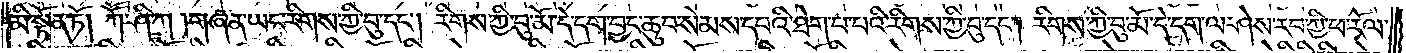མི་སྟོན་ཏོ། །ཀཽ་ཤི་ཀ། གཞན་ཡང་རིགས་ཀྱི་བུ་དང༌། རིགས་ཀྱི་བུ་མོ་དེ་དག་བྱང་ཆུབ་སེམས་དཔའི་ཐེག་པ་པའི་རིགས་ཀྱི་བུ་དང༌། རིགས་ཀྱི་བུ་མོ་དེ་དག་ལ་ཤེས་རབ་ཀྱི་ཕ་རོལ་
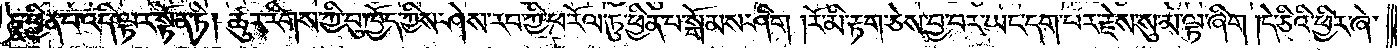ཏུ་ཕྱིན་པ་འདི་ལྟར་སྟོན་ཏེ། ཚུར་རིགས་ཀྱི་བུ་ཁྱོད་ཀྱིས་ཤེས་རབ་ཀྱི་ཕ་རོལ་ཏུ་ཕྱིན་པ་སྒོམས་ཤིག །རོ་མི་རྟག་ཅེས་བྱ་བར་ཡང་དག་པར་རྗེས་སུ་མ་ལྟ་ཞིག །དེ་ཅིའི་ཕྱིར་ཞེ་
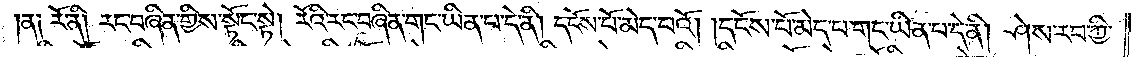ན༑ རོ་ནི། རང་བཞིན་གྱིས་སྟོང་སྟེ། རོའི་རང་བཞིན་གང་ཡིན་པ་དེ་ནི། དངོས་པོ་མེད་པའོ། །དངོས་པོ་མེད་པ་གང་ཡིན་པ་དེ་ནི། ཤེས་རབ་ཀྱི་
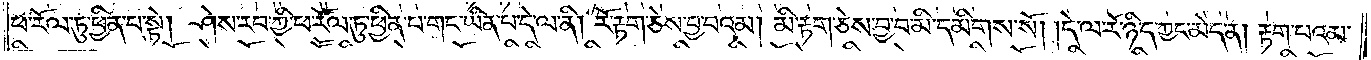ཕ་རོལ་ཏུ་ཕྱིན་པ་སྟེ། ཤེས་རབ་ཀྱི་ཕ་རོལ་ཏུ་ཕྱིན་པ་གང་ཡིན་པ་དེ་ལ་ནི། རོ་རྟག་ཅེས་བྱ་བའམ། མི་རྟག་ཅེས་བྱ་བ་མི་དམིགས་སོ། །དེ་ལ་རོ་ཉིད་ཀྱང་མེད་ན། རྟག་པའམ་
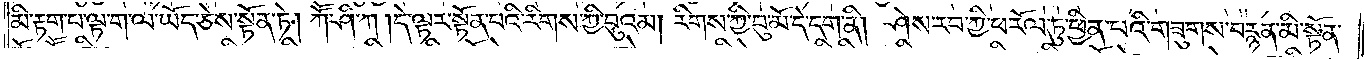མི་རྟག་པ་ལྟ་ག་ལ་ཡོད་ཅེས་སྟོན་ཏེ། ཀཽ་ཤི་ཀ། དེ་ལྟར་སྟོན་པའི་རིགས་ཀྱི་བུའམ། རིགས་ཀྱི་བུ་མོ་དེ་དག་ནི། ཤེས་རབ་ཀྱི་ཕ་རོལ་ཏུ་ཕྱིན་པའི་གཟུགས་བརྙན་མི་སྟོན་
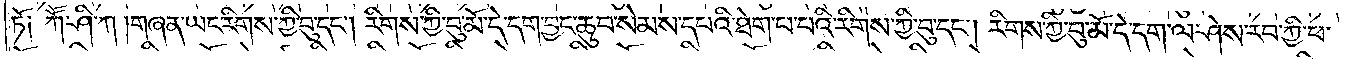ཏོ༑ ཀཽ་ཤི་ཀ། གཞན་ཡང་རིགས་ཀྱི་བུ་དང༌། རིགས་ཀྱི་བུ་མོ་དེ་དག་བྱང་ཆུབ་སེམས་དཔའི་ཐེག་པ་པའི་རིགས་ཀྱི་བུ་དང༌། རིགས་ཀྱི་བུ་མོ་དེ་དག་ལ་ཤེས་རབ་ཀྱི་ཕ་
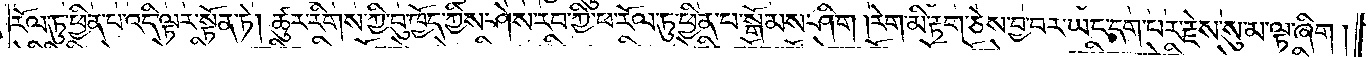རོལ་ཏུ་ཕྱིན་པ་འདི་ལྟར་སྟོན་ཏེ། ཚུར་རིགས་ཀྱི་བུ་ཁྱོད་ཀྱིས་ཤེས་རབ་ཀྱི་ཕ་རོལ་ཏུ་ཕྱིན་པ་སྒོམས་ཤིག །རེག་མི་རྟག་ཅེས་བྱ་བར་ཡང་དག་པར་རྗེས་སུ་མ་ལྟ་ཞིག།
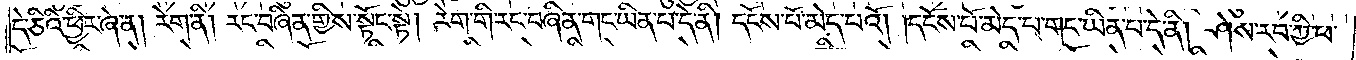དེ་ཅིའི་ཕྱིར་ཞེ་ན། རེག་ནི། རང་བཞིན་གྱིས་སྟོང་སྟེ། རེག་གི་རང་བཞིན་གང་ཡིན་པ་དེ་ནི། དངོས་པོ་མེད་པའོ། །དངོས་པོ་མེད་པ་གང་ཡིན་པ་དེ་ནི། ཤེས་རབ་ཀྱི་ཕ་
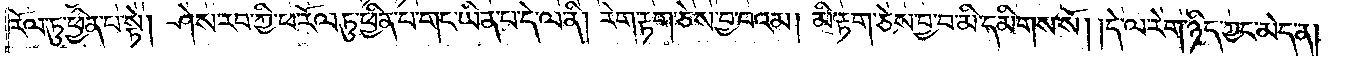རོལ་ཏུ་ཕྱིན་པ་སྟེ། ཤེས་རབ་ཀྱི་ཕ་རོལ་ཏུ་ཕྱིན་པ་གང་ཡིན་པ་དེ་ལ་ནི། རེག་རྟག་ཅེས་བྱ་བའམ། མི་རྟག་ཅེས་བྱ་བ་མི་དམིགས་སོ། །དེ་ལ་རེག་ཉིད་ཀྱང་མེད་ན།
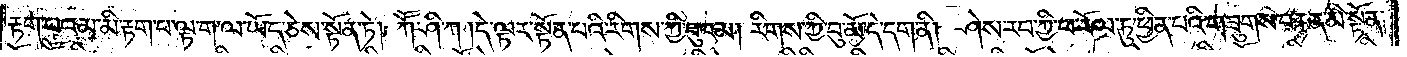རྟག་པའམ་མི་རྟག་པ་ལྟ་ག་ལ་ཡོད་ཅེས་སྟོན་ཏེ། ཀཽ་ཤི་ཀ །དེ་ལྟར་སྟོན་པའི་རིགས་ཀྱི་བུའམ། རིགས་ཀྱི་བུ་མོ་དེ་དག་ནི། ཤེས་རབ་ཀྱི་ཕ་རོལ་ཏུ་ཕྱིན་པའི་གཟུགས་བརྙན་མི་སྟོན་
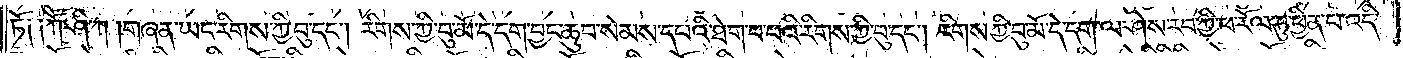ཏོ༑ ༑ཀཽ་ཤི་ཀ། གཞན་ཡང་རིགས་ཀྱི་བུ་དང༌། རིགས་ཀྱི་བུ་མོ་དེ་དག་བྱང་ཆུབ་སེམས་དཔའི་ཐེག་པ་པའི་རིགས་ཀྱི་བུ་དང༌། རིགས་ཀྱི་བུ་མོ་དེ་དག་ལ་ཤེས་རབ་ཀྱི་ཕ་རོལ་ཏུ་ཕྱིན་པ་འདི་
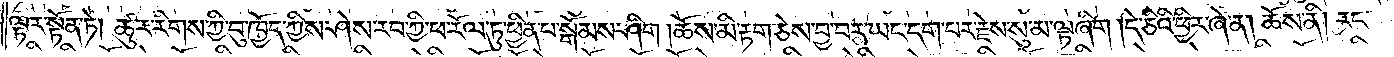ལྟར་སྟོན་ཏེ། ཚུར་རིགས་ཀྱི་བུ་ཁྱོད་ཀྱིས་ཤེས་རབ་ཀྱི་ཕ་རོལ་ཏུ་ཕྱིན་པ་སྒོམས་ཤིག །ཆོས་མི་རྟག་ཅེས་བྱ་བར་ཡང་དག་པར་རྗེས་སུ་མ་ལྟ་ཞིག །དེ་ཅིའི་ཕྱིར་ཞེ་ན། ཆོས་ནི། རང་
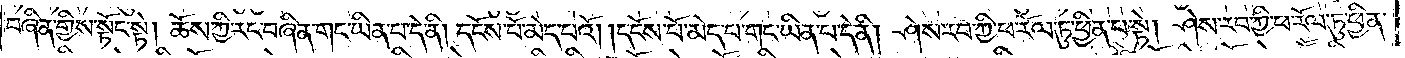བཞིན་གྱིས་སྟོང་སྟེ། ཆོས་ཀྱི་རང་བཞིན་གང་ཡིན་པ་དེ་ནི། དངོས་པོ་མེད་པའོ། །དངོས་པོ་མེད་པ་གང་ཡིན་པ་དེ་ནི། ཤེས་རབ་ཀྱི་ཕ་རོལ་ཏུ་ཕྱིན་པ་སྟེ། ཤེས་རབ་ཀྱི་ཕ་རོལ་ཏུ་ཕྱིན་
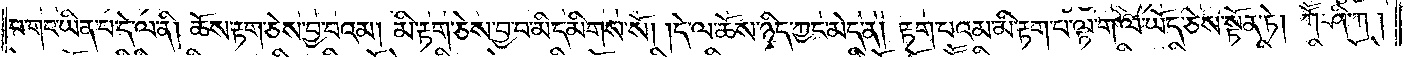པ་གང་ཡིན་པ་དེ་ལ་ནི། ཆོས་རྟག་ཅེས་བྱ་བའམ། མི་རྟག་ཅེས་བྱ་བ་མི་དམིགས་སོ། །དེ་ལ་ཆོས་ཉིད་ཀྱང་མེད་ན། རྟག་པའམ་མི་རྟག་པ་ལྟ་ག་ལ་ཡོད་ཅེས་སྟོན་ཏེ། ཀཽ་ཤི་ཀ།
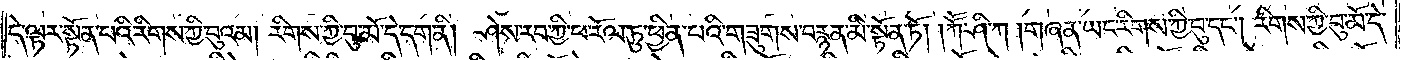དེ་ལྟར་སྟོན་པའི་རིགས་ཀྱི་བུའམ། རིགས་ཀྱི་བུ་མོ་དེ་དག་ནི། ཤེས་རབ་ཀྱི་ཕ་རོལ་ཏུ་ཕྱིན་པའི་གཟུགས་བརྙན་མི་སྟོན་ཏོ། །ཀཽ་ཤི་ཀ །གཞན་ཡང་རིགས་ཀྱི་བུ་དང༌། རིགས་ཀྱི་བུ་མོ་དེ་
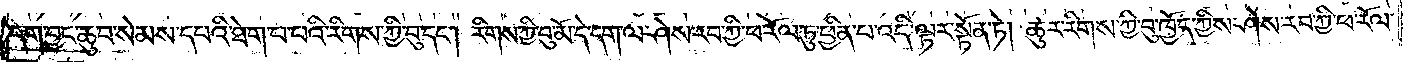དག་བྱང་ཆུབ་སེམས་དཔའི་ཐེག་པ་བའི་རིགས་ཀྱི་བུ་དང༌། རིགས་ཀྱི་བུ་མོ་དེ་དག་ལ་ཤེས་རབ་ཀྱི་ཕ་རོལ་ཏུ་ཕྱིན་པ་འདི་ལྟར་སྟོན་ཏེ། ཚུར་རིགས་ཀྱི་བུ་ཁྱོད་ཀྱིས་ཤེས་རབ་ཀྱི་ཕ་རོལ་
